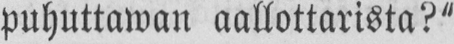puhuttawan aallottarista?"
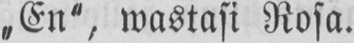„En", wastasi Rosa.
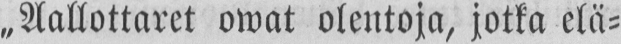„Aallottaret owat olentoja, jotka elä-
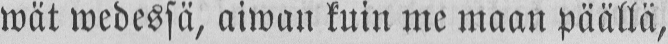wät wedessä, aiwan kuin me maan päällä,
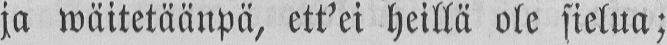ja wäitetäänpä, ett'ei heillä ole sielua;
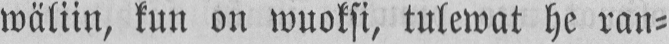wäliin, kun on wuoksi, tulewat he ran-
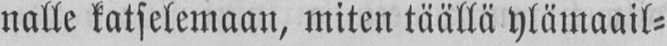nalle katselemaan, miten täällä ylämaail-
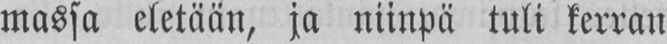massa eletään, ja niinpä tuli kerran
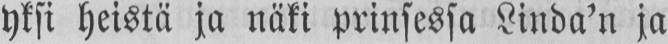yksi heistä ja näki prinsessa Linda'n ja
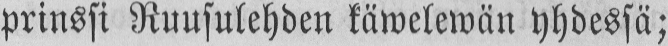prinssi Ruusulehden käwelewän yhdessä;
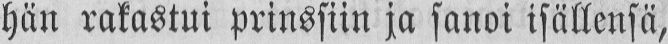hän rakastui prinssiin ja sanoi isällensä,
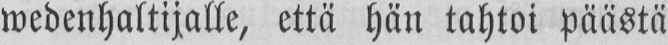wedenhaltijalle, että hän tahtoi päästä
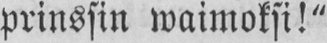prinssin waimoksi!"
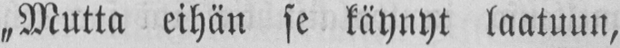„Mutta eihän se käynyt laatuun,
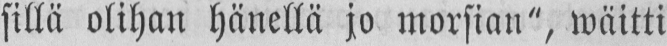sillä olihan hänellä jo morsian", wäitti
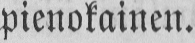pienokainen.
